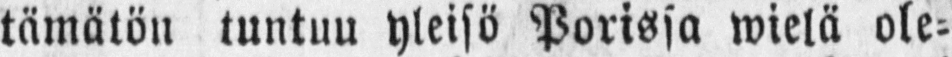tämätön tuntuu yleisö Porissa wielä ole-
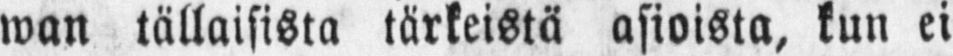wan tällaisista tärkeistä asioista, kun ei
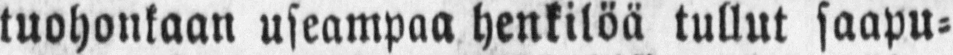tuohonkaan useampaa henkilöä tullut saapu-
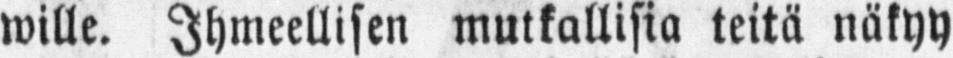wille. Ihmeellisen mutkallisia teitä näkyy
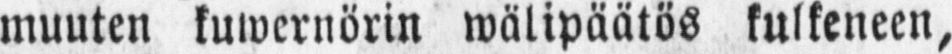muuten kuwernörin wälipäätös kulkeneen,
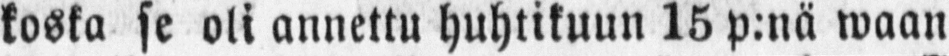koska se oli annettu huhtikuun 15 p:nä waan
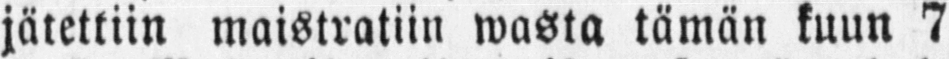jätettiin maistratiin wasta tämän kuun 7
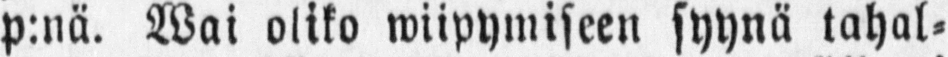p:nä. Wai oliko wiipymiseen syynä tahal-
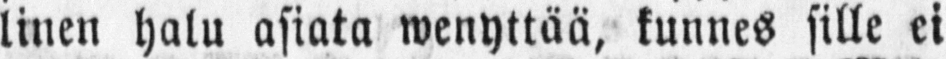linen halu asiata wenyttää, kunnes sille ei
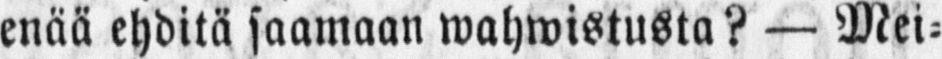enää ehditä saamaan wahwistusta? — Mei-
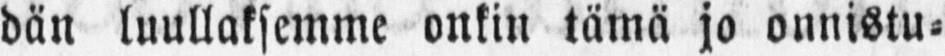dän luullaksemme onkin tämä jo onnistu-
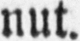nut.
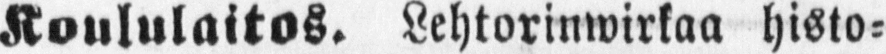Koululaitos. Lehtorinwirkaa histo-
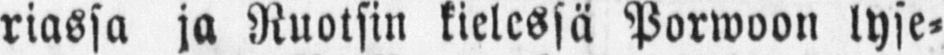riassa ja Ruotsin kielessä Porwoon lyse-
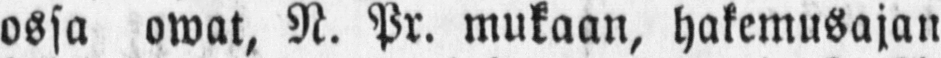ossa owat, N. Pr. mukaan, hakemusajan
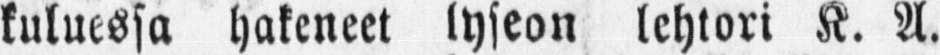kuluessa hakeneet lyseon lehtori K. A.
